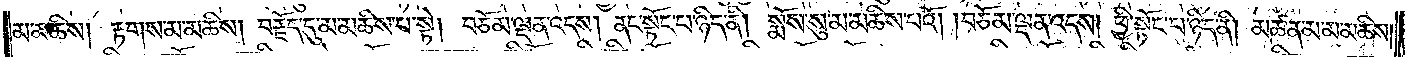མ་མཆིས། རྟགས་མ་མཆིས། བརྗོད་དུ་མ་མཆིས་པ་སྟེ། བཅོམ་ལྡན་འདས། ནང་སྟོང་པ་ཉིད་ནི། སྨོས་སུ་མ་མཆིས་པའོ། །བཅོམ་ལྡན་འདས། ཕྱི་སྟོང་པ་ཉིད་ནི། མཚན་མ་མ་མཆིས།
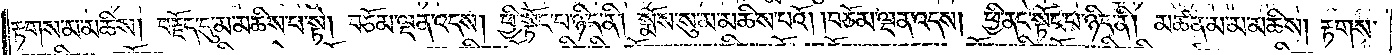རྟགས་མ་མཆིས། བརྗོད་དུ་མ་མཆིས་པ་སྟེ། བཅོམ་ལྡན་འདས། ཕྱི་སྟོང་པ་ཉིད་ནི། སྨོས་སུ་མ་མཆིས་པའོ། །བཅོམ་ལྡན་འདས། ཕྱི་ནང་སྟོང་པ་ཉིད་ནི། མཚན་མ་མ་མཆིས། རྟགས་
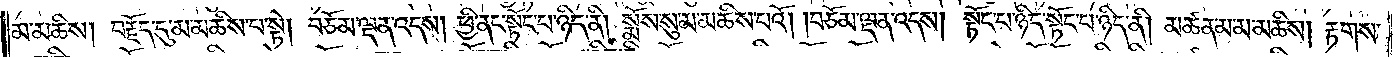མ་མཆིས། བརྗོད་དུ་མ་མཆིས་པ་སྟེ། བཅོམ་ལྡན་འདས། ཕྱི་ནང་སྟོང་པ་ཉིད་ནི། སྨོས་སུ་མ་མཆིས་པའོ། །བཅོམ་ལྡན་འདས། སྟོང་པ་ཉིད་སྟོང་པ་ཉིད་ནི། མཚན་མ་མ་མཆིས། རྟགས་
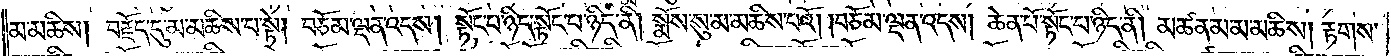མ་མཆིས། བརྗོད་དུ་མ་མཆིས་པ་སྟེ། བཅོམ་ལྡན་འདས། སྟོང་པ་ཉིད་སྟོང་པ་ཉིད་ནི། སྨོས་སུ་མ་མཆིས་པའོ། །བཅོམ་ལྡན་འདས། ཆེན་པོ་སྟོང་པ་ཉིད་ནི། མཚན་མ་མ་མཆིས། རྟགས་
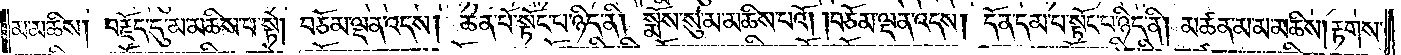མ་མཆིས། བརྗོད་དུ་མ་མཆིས་པ་སྟེ། བཅོམ་ལྡན་འདས། ཆེན་པོ་སྟོང་པ་ཉིད་ནི། སྨོས་སུ་མ་མཆིས་པའོ། །བཅོམ་ལྡན་འདས། དོན་དམ་པ་སྟོང་པ་ཉིད་ནི། མཚན་མ་མ་མཆིས། རྟགས་
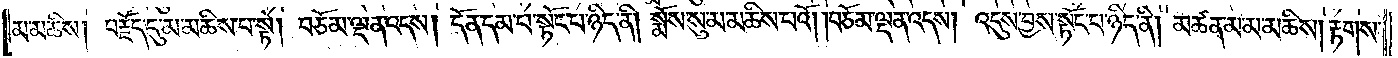མ་མཆིས། བརྗོད་དུ་མ་མཆིས་པ་སྟེ། བཅོམ་ལྡན་འདས། དོན་དམ་པ་སྟོང་པ་ཉིད་ནི། སྨོས་སུ་མ་མཆིས་པའོ། །བཅོམ་ལྡན་འདས། འདུས་བྱས་སྟོང་པ་ཉིད་ནི། མཚན་མ་མ་མཆིས། རྟགས་
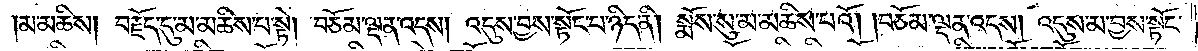མ་མཆིས། བརྗོད་དུ་མ་མཆིས་པ་སྟེ། བཅོམ་ལྡན་འདས། འདུས་བྱས་སྟོང་པ་ཉིད་ནི། སྨོས་སུ་མ་མཆིས་པའོ། །བཅོམ་ལྡན་འདས། འདུས་མ་བྱས་སྟོང་
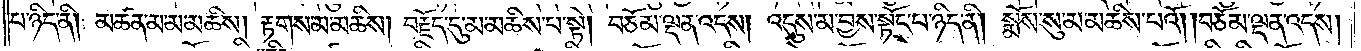པ་ཉིད་ནི། མཚན་མ་མ་མཆིས། རྟགས་མ་མཆིས། བརྗོད་དུ་མ་མཆིས་པ་སྟེ། བཅོམ་ལྡན་འདས། འདུས་མ་བྱས་སྟོང་པ་ཉིད་ནི། སྨོས་སུ་མ་མཆིས་པའོ། །བཅོམ་ལྡན་འདས།
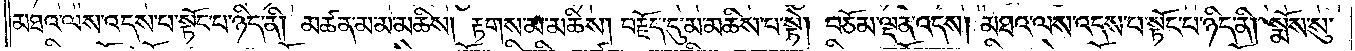མཐའ་ལས་འདས་པ་སྟོང་པ་ཉིད་ནི། མཚན་མ་མ་མཆིས། རྟགས་མ་མཆིས། བརྗོད་དུ་མ་མཆིས་པ་སྟེ། བཅོམ་ལྡན་འདས། མཐའ་ལས་འདས་པ་སྟོང་པ་ཉིད་ནི། སྨོས་སུ་
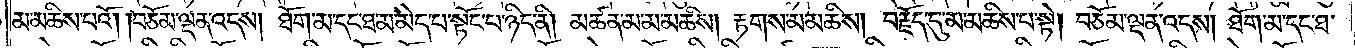མ་མཆིས་པའོ། །བཅོམ་ལྡན་འདས། ཐོག་མ་དང་ཐ་མ་མེད་པ་སྟོང་པ་ཉིད་ནི། མཚན་མ་མ་མཆིས། རྟགས་མ་མཆིས། བརྗོད་དུ་མ་མཆིས་པ་སྟེ། བཅོམ་ལྡན་འདས། ཐོག་མ་དང་ཐ་
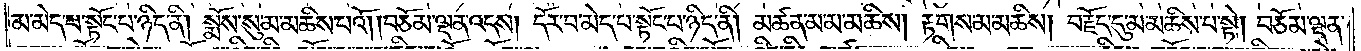མ་མེད་པ་སྟོང་པ་ཉིད་ནི། སྨོས་སུ་མ་མཆིས་པའོ། །བཅོམ་ལྡན་འདས། དོར་བ་མེད་པ་སྟོང་པ་ཉིད་ནི། མཚན་མ་མ་མཆིས། རྟགས་མ་མཆིས། བརྗོད་དུ་མ་མཆིས་པ་སྟེ། བཅོམ་ལྡན་
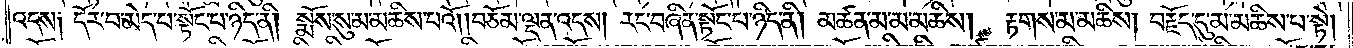འདས། དོར་བ་མེད་པ་སྟོང་པ་ཉིད་ནི། སྨོས་སུ་མ་མཆིས་པའོ། །བཅོམ་ལྡན་འདས། རང་བཞིན་སྟོང་པ་ཉིད་ནི། མཚན་མ་མ་མཆིས་རྟགས་མ་མཆིས། བརྗོད་དུ་མ་མཆིས་པ་སྟེ།
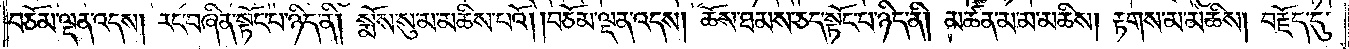བཅོམ་ལྡན་འདས། རང་བཞིན་སྟོང་པ་ཉིད་ནི། སྨོས་སུ་མ་མཆིས་པའོ། །བཅོམ་ལྡན་འདས། ཆོས་ཐམས་ཅད་སྟོང་པ་ཉིད་ནི། མཚན་མ་མ་མཆིས། རྟགས་མ་མཆིས། བརྗོད་དུ་
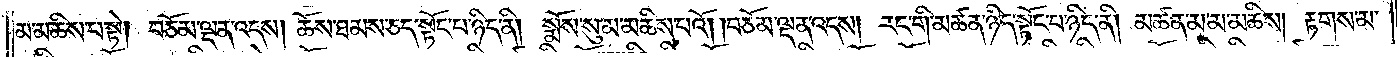མ་མཆིས་པ་སྟེ། བཅོམ་ལྡན་འདས། ཆོས་ཐམས་ཅད་སྟོང་པ་ཉིད་ནི། སྨོས་སུ་མ་མཆིས་པའོ། །བཅོམ་ལྡན་འདས། རང་གི་མཚན་ཉིད་སྟོང་པ་ཉིད་ནི། མཚན་མ་མ་མཆིས། རྟགས་མ་
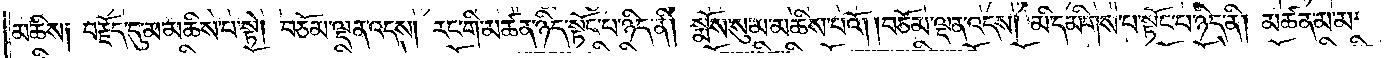མཆིས༑ བརྗོད་དུ་མ་མཆིས་པ་སྟེ། བཅོམ་ལྡན་འདས། རང་གི་མཚན་ཉིད་སྟོང་པ་ཉིད་ནི། སྨོས་སུ་མ་མཆིས་པའོ། །བཅོམ་ལྡན་འདས། མི་དམིགས་པ་སྟོང་པ་ཉིད་ནི། མཚན་མ་མ་
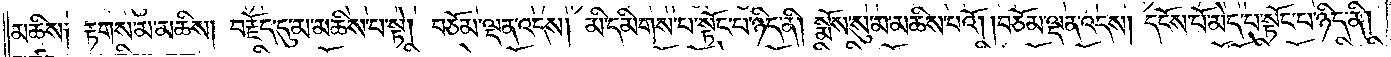མཆིས༑ རྟགས་མ་མཆིས། བརྗོད་དུ་མ་མཆིས་པ་སྟེ། བཅོམ་ལྡན་འདས། མི་དམིགས་པ་སྟོང་པ་ཉིད་ནི། སྨོས་སུ་མ་མཆིས་པའོ། །བཅོམ་ལྡན་འདས། དངོས་པོ་མེད་པ་སྟོང་པ་ཉིད་ནི།
